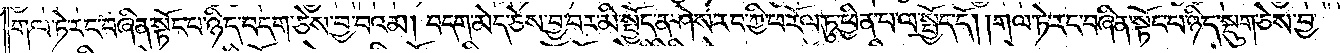གལ་ཏེ་རང་བཞིན་སྟོང་པ་ཉིད་བདག་ཅེས་བྱ་བའམ། བདག་མེད་ཅེས་བྱ་བར་མི་སྤྱོད་ན་ཤེས་རབ་ཀྱི་ཕ་རོལ་ཏུ་ཕྱིན་པ་ལ་སྤྱོད་དོ། །གལ་ཏེ་རང་བཞིན་སྟོང་པ་ཉིད་སྡུག་ཅེས་བྱ་
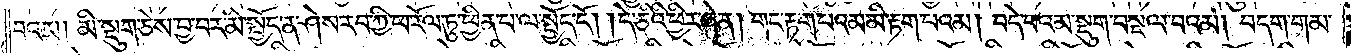བའམ། མི་སྡུག་ཅེས་བྱ་བར་མི་སྤྱོད་ན་ཤེས་རབ་ཀྱི་ཕ་རོལ་ཏུ་ཕྱིན་པ་ལ་སྤྱོད་དོ། །དེ་ཅིའི་ཕྱིར་ཞེ་ན། གང་རྟག་པའམ་མི་རྟག་པའམ། བདེ་བའམ་སྡུག་བསྔལ་བའམ། བདག་གམ་
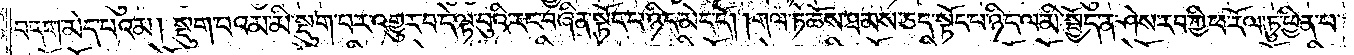བདག་མེད་པའམ། སྡུག་པའམ་མི་སྡུག་པར་འགྱུར་བ་དེ་ལྟ་བུའི་རང་བཞིན་སྟོང་པ་ཉིད་མེད་དོ། །གལ་ཏེ་ཆོས་ཐམས་ཅད་སྟོང་པ་ཉིད་ལ་མི་སྤྱོད་ན་ཤེས་རབ་ཀྱི་ཕ་རོལ་ཏུ་ཕྱིན་པ་
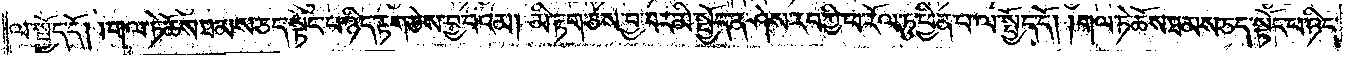ལ་སྤྱོད་དོ། །གལ་ཏེ་ཆོས་ཐམས་ཅད་སྟོང་པ་ཉིད་རྟག་ཅེས་བྱ་བའམ། མི་རྟག་ཅེས་བྱ་བར་མི་སྤྱོད་ན་ཤེས་རབ་ཀྱི་ཕ་རོལ་ཏུ་ཕྱིན་པ་ལ་སྤྱོད་དོ། །གལ་ཏེ་ཆོས་ཐམས་ཅད་སྟོང་པ་ཉིད་
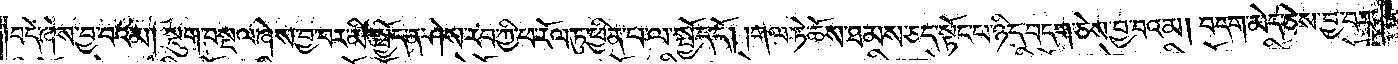བདེ་ཞེས་བྱ་བའམ། སྡུག་བསྔལ་ཞེས་བྱ་བར་མི་སྤྱོད་ན་ཤེས་རབ་ཀྱི་ཕ་རོལ་ཏུ་ཕྱིན་པ་ལ་སྤྱོད་དོ། །གལ་ཏེ་ཆོས་ཐམས་ཅད་སྟོན་པ་ཉིད་བདག་ཅེས་བྱ་བའམ། བདག་མེད་ཅེས་བྱ་བར་
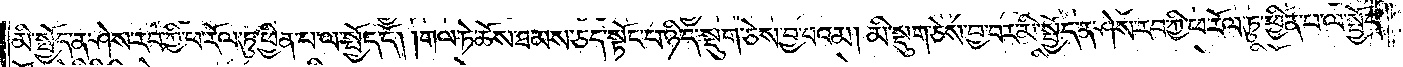མི་སྤྱོད་ན་ཤེས་རབ་ཀྱི་ཕ་རོལ་ཏུ་ཕྱིན་པ་ལ་སྤྱོད་དོ། །གལ་ཏེ་ཆོས་ཐམས་ཅད་སྟོང་པ་ཉིད་སྡུག་ཅེས་བྱ་བའམ། མི་སྡུག་ཅེས་བྱ་བར་མི་སྤྱོད་ན་ཤེས་རབ་ཀྱི་ཕ་རོལ་ཏུ་ཕྱིན་པ་ལ་སྤྱོད་
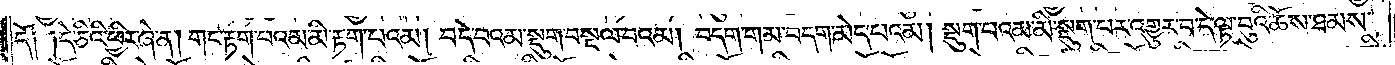དོ༑ ༑དེ་ཅིའི་ཕྱིར་ཞེ་ན། གང་རྟག་པའམ་མི་རྟག་པའམ། བདེ་བའམ་སྡུག་བསྔལ་བའམ། བདག་གམ་བདག་མེད་པའམ། སྡུག་པའམ་མི་སྡུག་པར་འགྱུར་བ་དེ་ལྟ་བུའི་ཆོས་ཐམས་
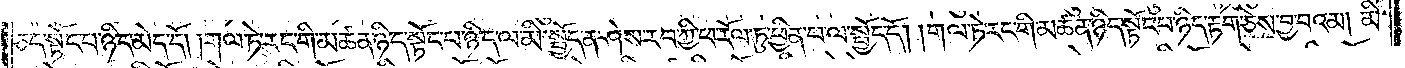ཅད་སྟོང་པ་ཉིད་མེད་དོ། །གལ་ཏེ་རང་གི་མཚན་ཉིད་སྟོང་པ་ཉིད་ལ་མི་སྤྱོད་ན་ཤེས་རབ་ཀྱི་ཕ་རོལ་ཏུ་ཕྱིན་པ་ལ་སྤྱོད་དོ། །གལ་ཏེ་རང་གི་མཚན་ཉིད་སྟོང་པ་ཉིད་རྟག་ཅེས་བྱ་བའམ། མི་
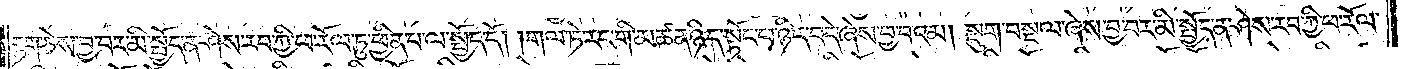རྟག་ཅེས་བྱ་བར་མི་སྤྱོད་ན་ཤེས་རབ་ཀྱི་ཕ་རོལ་ཏུ་ཕྱིན་པ་ལ་སྤྱོད་དོ། །གལ་ཏེ་རང་གི་མཚན་ཉིད་སྟོང་པ་ཉིད་བདེ་ཞེས་བྱ་བའམ། སྡུག་བསྔལ་ཞེས་བྱ་བར་མི་སྤྱོད་ན་ཤེས་རབ་ཀྱི་ཕ་རོལ་
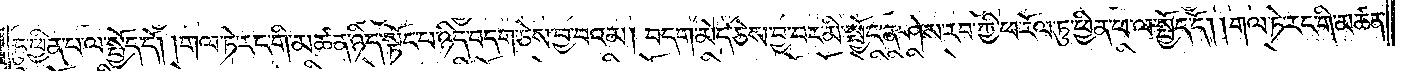ཏུ་ཕྱིན་པ་ལ་སྤྱོད་དོ། །གལ་ཏེ་རང་གི་མཚན་ཉིད་སྟོང་པ་ཉིད་བདག་ཅེས་བྱ་བའམ། བདག་མེད་ཅེས་བྱ་བར་མི་སྤྱོད་ན་ཤེས་རབ་ཀྱི་ཕ་རོལ་ཏུ་ཕྱིན་པ་ལ་སྤྱོད་དོ། །གལ་ཏེ་རང་གི་མཚན་
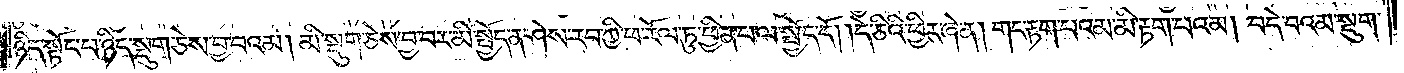ཉིད་སྟོང་པ་ཉིད་སྡུག་ཅེས་བྱ་བའམ། མི་སྡུག་ཅེས་བྱ་བར་མི་སྤྱོད་ན་ཤེས་རབ་ཀྱི་ཕ་རོལ་ཏུ་ཕྱིན་པ་ལ་སྤྱོད་དོ། །དེ་ཅིའི་ཕྱིར་ཞེ་ན། གང་རྟག་པའམ་མི་རྟག་པའམ། བདེ་བའམ་སྡུག་
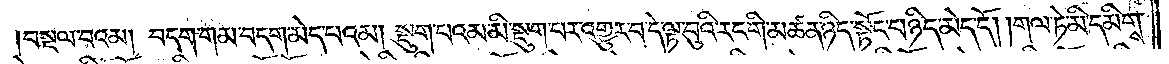བསྔལ་བའམ། བདག་གམ་བདག་མེད་པའམ། སྡུག་པའམ་མི་སྡུག་པར་འགྱུར་བ་དེ་ལྟ་བུའི་རང་གི་མཚན་ཉིད་སྟོང་པ་ཉིད་མེད་དོ། །གལ་ཏེ་མི་དམིགས་
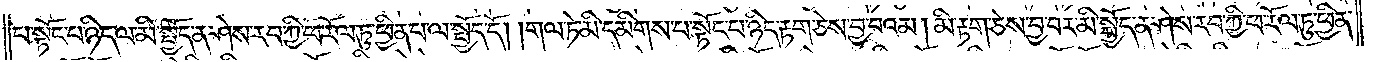པ་སྟོང་པ་ཉིད་ལ་མི་སྤྱོད་ན་ཤེས་རབ་ཀྱི་ཕ་རོལ་ཏུ་ཕྱིན་པ་ལ་སྤྱོད་དོ། །གལ་ཏེ་མི་དམིགས་པ་སྟོང་པ་ཉིད་རྟག་ཅེས་བྱ་བའམ། མི་རྟག་ཅེས་བྱ་བར་མི་སྤྱོད་ན་ཤེས་རབ་ཀྱི་ཕ་རོལ་ཏུ་ཕྱིན་
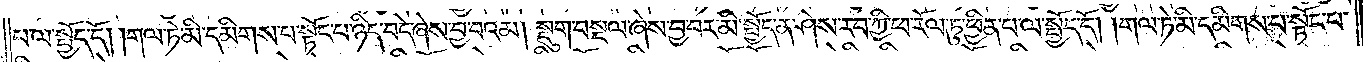པ་ལ་སྤྱོད་དོ། །གལ་ཏེ་མི་དམིགས་པ་སྟོང་པ་ཉིད་བདེ་ཞེས་བྱ་བའམ། སྡུག་བསྔལ་ཞེས་བྱ་བར་མི་སྤྱོད་ན་ཤེས་རབ་ཀྱི་ཕ་རོལ་ཏུ་ཕྱིན་པ་ལ་སྤྱོད་དོ། །གལ་ཏེ་མི་དམིགས་པ་སྟོང་པ་
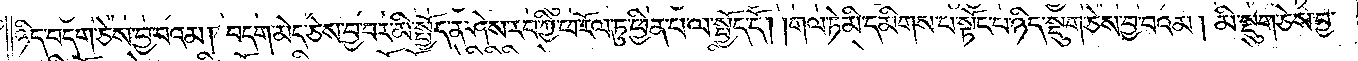ཉིད་བདག་ཅེས་བྱ་བའམ། བདག་མེད་ཅེས་བྱ་བར་མི་སྤྱོད་ན་ཤེས་རབ་ཀྱི་ཕ་རོལ་ཏུ་ཕྱིན་པ་ལ་སྤྱོད་དོ། །གལ་ཏེ་མི་དམིགས་པ་སྟོང་པ་ཉིད་སྡུག་ཅེས་བྱ་བའམ། མི་སྡུག་ཅེས་བྱ་
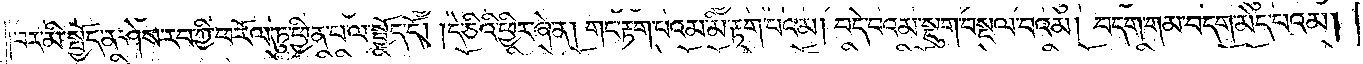བར་མི་སྤྱོད་ན་ཤེས་རབ་ཀྱི་ཕ་རོལ་ཏུ་ཕྱིན་པ་ལ་སྤྱོད་དོ། །དེ་ཅིའི་ཕྱིར་ཞེ་ན། གང་རྟག་པའམ་མི་རྟག་པའམ། བདེ་བའམ་སྡུག་བསྔལ་བའམ། བདག་གམ་བདག་མེད་པའམ།
